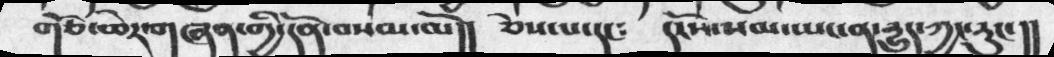གཙོ་ཆེར་གཞན་གྱི་དོན་བསམ་མོ།། ཅེས་པ་དང༴ དངོས་སམ་ཡང་ན་དྱུདད་ཀྱང་རུང་།།
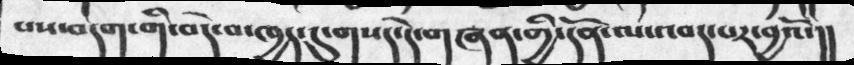པས་བདག་གི་བདེ་བ་ཁྱད་དུ་གསད་དེ་གཞན་གྱི་དོན་ལ་འབད་པར་བྱའོ་།།
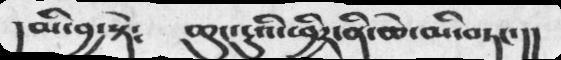།མི་བྱ་སྟེ༴  ཆུང་ངུའི་ཕྱིར་ནི་ཆེ་མི་བཏང་།།
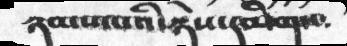ཉམས་པའི་ཉེས་དམིགས༴
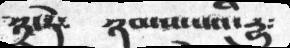༣་ཏེ༴   ཉམས་པའི་དྱུ༴
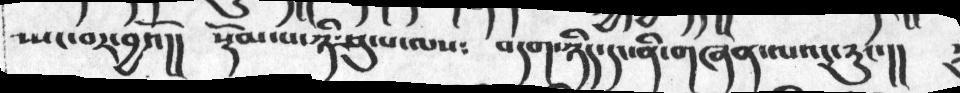སྤང་བར་བྱའོ།།  སྡོམ་པ་ཉི་ཤུ་པ་ལས༴  བདག་ཉིད་དང་ནི་གཞན་ལའང་རུང་།།
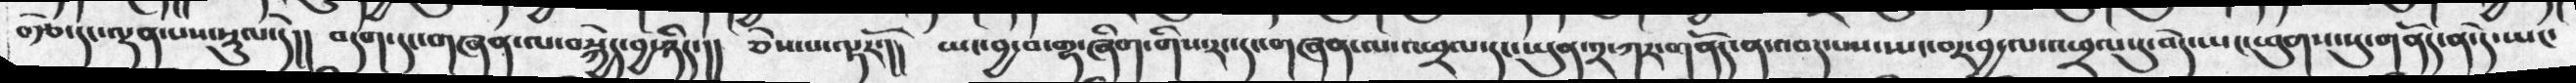བརྩེ་དང་ལྡན་པས་སྡུལ་དེ།། བདག་དང་གཞན་ལ་བསྐྱེད་བྱ་ཉིད་།། ཅེས་པ་ལྟརོ་།། ཡང་བྱ་བ་གྷ་ཞིག་གིས་རང་དང་གཞན་ལ་འཕྲལ་དང་ཡུན་༢་ཀར་གནོད་ན་འབད་པད་སྤང་བར་བྱ་ལ་འཕྲལ་དུ་བདེ་ཡང་ཕུགས་སུ་གནོད་ན་དེ་ཡང་
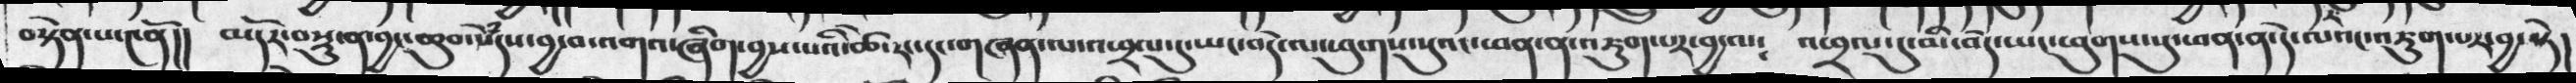བསྟེན་པ་༤ནོ།། མདོར་བསྡུ་ན་བྱང་ཆུབ་སེཾདས་བྱ་བ་འགའ་ཞིག་བྱས་པའི་ཚེ་རང་དང་གཞན་ལ་འཕྲལ་དུ་ཡང་བདེ་ལ་ཕུགས་སུའང་ཕན་ན་འཇུག་པར་བྱ་ལ༴  འཕྲལ་དུ་མི་བདེ་ཡང་ཕུགས་སུ་ཕན་ན་དེ་ལའང་འཇུག་པར་བྱ་སྟེ།
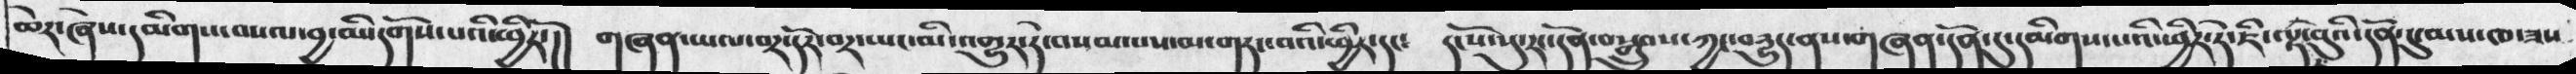ཆེར་ཞེས་དམིགས་བསལ་བྱ་མི་དགོས་པའི་ཕྱིརོ་།། གཞན་ཡལ་བར་དོར་བར་ཡང་མི་འགྱུར་དེ་བསམ་པས་མ་གཏང་བའི་ཕྱིར་དང༴  དངོས་སུ་རང་དོན་བསྒྲུབས་ཀྱང་བདྱུད་ནས་གཞན་དོན་དུ་དམིགས་པའི་ཕྱིར་ཏེ་ཇི་ལྟ་བུའི་དོན་དུ་མས་ཁ་ཟས་
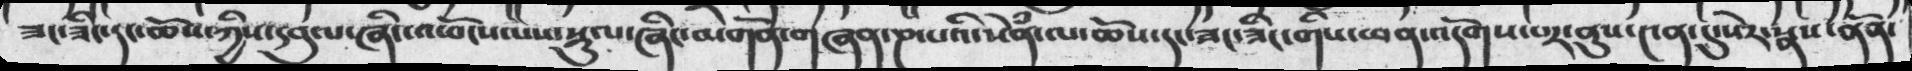ཟང་ཟིང་དང་ཆོས་ཀྱིས་དབུལ་ཞིང་འཕོངས་པས་སྡུལ་ཞིང་མགོན་གཞན་ཎ་པའི་སེཾན་ལ་ཆོས་དང་ཟང་ཟིང་གིས་ཕན་འདོགས་པར་ནུས་༤ན་དུ་སེར་སྣས་ནོན་
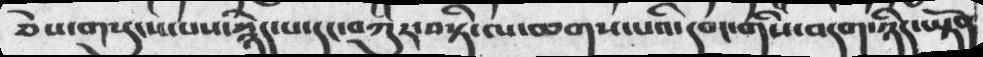ཅེས་གསུངས་པས་སྙེད་པ་དང་བཀུར་བསྟི་ལ་ཆགས་པའི་དབང་གིས་བདག་ཉིད་ཡྟོན
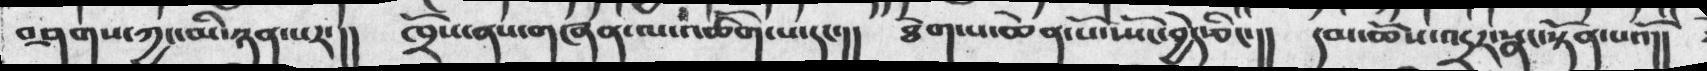བཤགས་ཀྱང་མི་ཉན་པར་།།  ཁྲོས་ནས་གཞན་ལ་འཚོག་པ་དང་།།  ཐེག་པ་ཆེན་པོ་སྤོང་བྱེད་ཅིང་།།  དམ་ཆོས་འདྲ་སྣང་སྟོན་པའོ།།
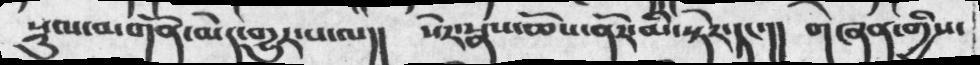སྡུལ་མགོན་མེད་གྱུར་པ་ལ།།  སེར་སྣ་ཆོས་ནོར་མི་སྟེར་དང་།།  གཞན་གྱིས་
